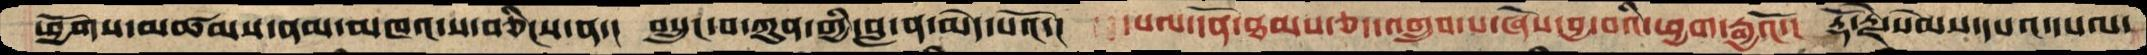ཕྱོགས་མཚམས་ནམ་མཁའ་ས་བཅིངས་ན་།  བསྲུང་བ་ཀུན་གྱི་བླ་ན་མེད་པའོ་།  དཔལ་དོན་ཐམས་ཅད་འགྲུབ་པ་ཞེས་བྱ་བའི་ཕྱག་རྒྱའོ་།  རྡོ་རྗེ་སེམས་དཔའ་དཔལ་
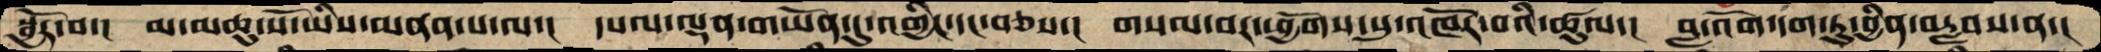སྦྱོར་བ་།  མ་མཆུ་སོ་ཡིས་མནན་པ་ལ་།  དཔལ་ལྡན་གཡོན་དུ་འགྱིང་དང་བཅས་།  གསལ་བར་ཕྱོགས་སུ་འཁོར་བའི་ཚུལ་།  བླ་འོག་དག་ཏུ་བྱིན་བརླབས་ན་།
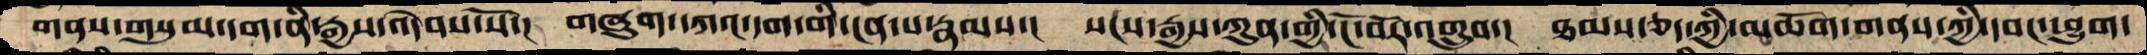གནས་གསུམ་དག་ནི་རྒྱས་འདེབས་སོ་།  གཞུག་དཀའ་དག་གི་ངན་པ་རྣམས་།  སངས་རྒྱས་ཀུན་གྱི་ངོ་བོར་འགྲུབ་།  ཐམས་ཅད་ཀྱི་མཆོག་གནས་ཀྱི་དབང་ཕྱུག་
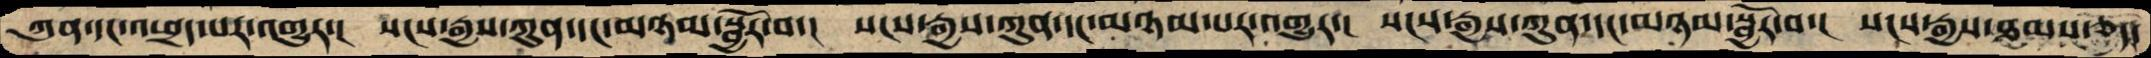ཀུན་དང་འཕྲད་པར་འགྱུར་།  སངས་རྒྱས་ཀུན་དང་མཉམ་སྦྱོར་བ་།  སངས་རྒྱས་ཀུན་དང་མཉམ་པར་འགྱུར་།  སངས་རྒྱས་ཀུན་དང་མཉམ་སྦྱོར་བ་།  སངས་རྒྱས་ཐམས་ཅད་
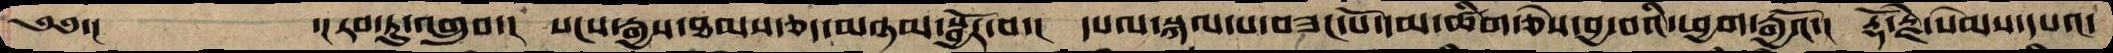༄༅་།     ་།རབ་ཏུ་འགྲུབ་།  སངས་རྒྱས་ཐམས་ཅད་མཉམ་སྦྱོར་བ་།  དཔལ་ལྡན་སྐལ་པ་བཟང་པོ་དམ་ཚིག་ཅེས་བྱ་བའི་ཕྱག་རྒྱའོ་།  རྡོ་རྗེ་སེམས་དཔའ་
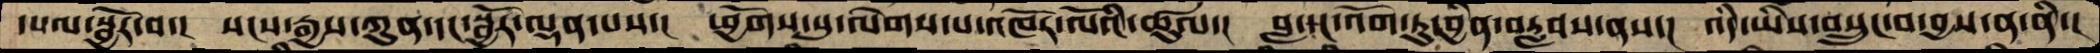དཔལ་སྦྱོར་བ་།  སངས་རྒྱས་ཀུན་དང་སྦྱོར་ལྡན་པས་།  ཕྱོགས་སུ་ལེགས་པ་འཁོར་ལོའི་ཚུལ་།  བླ་དང་འོག་ཏུ་བྱིན་བརླབས་ནས་།  འདི་ཡིས་བསྲུང་བ་བྱས་ན་ནི་།
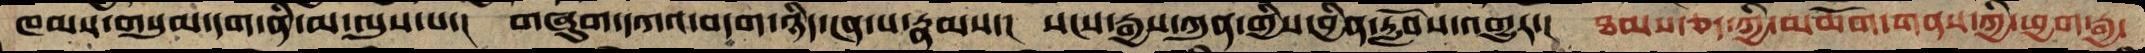ཁམས་གསུམ་དག་ནི་མ་ལུས་པ་།  གཞུག་དཀའ་བདག་ཉིད་ངན་པ་རྣམས་།  སངས་རྒྱས་ཀུན་གྱིས་བྱིན་རློབས་འགྱུར་།  ཐམས་ཅད་ཀྱི་མཆོག་གནས་ཀྱི་ཕྱག་རྒྱ་
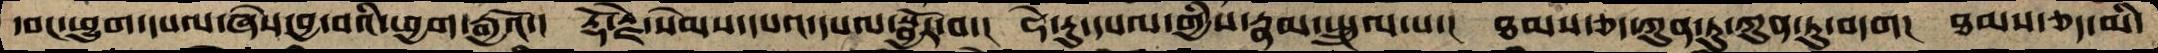དབང་ཕྱུག་དཔལ་ཞེས་བྱ་བའི་ཕྱག་རྒྱའོ་།  རྡོ་རྗེ་སེམས་དཔའ་དཔལ་སྦྱོར་བ་།  ཧེ་རུ་དཔལ་གྱིས་རྣམ་སྤྲུལ་པ་།  ཐམས་ཅད་ཀུན་ཏུ་ཀུན་ཏུ་བདག།  ཐམས་ཅད་མི་
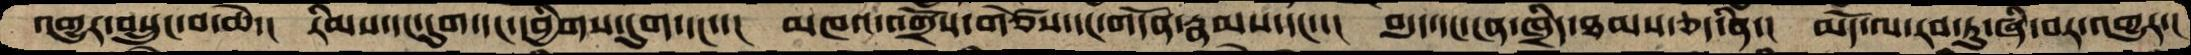འགྱུར་བསྲུང་བ་ཆེ་།  རིམས་དང་དུག་དང་དབྱིགས་དུག་དང་་།  མཁའ་འགྲོས་གཙོས་དང་གདོན་རྣམས་དང་་།  བདུད་དང་ངན་ཁྲིད་ཐམས་ཅད་ནི་།  མདོ་ལ་རབ་ཏུ་ཞི་བར་འགྱུར་།
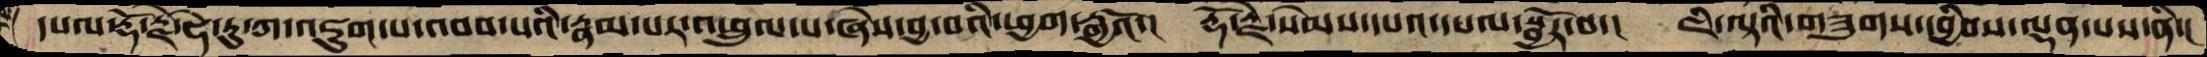དཔལ་རྡོ་རྗེ་ཧེ་རུ་ཀ་འཇུག་པ་འབབ་པའི་རྣམ་པར་འཕྲུལ་པ་ཞེས་བྱ་བའི་ཕྱག་རྒྱའོ་།  རྡོ་རྗེ་སེམས་དཔའ་དཔལ་སྦྱོར་བ་།  ཇི་ལྟའི་གཟུགས་དབྱིབས་ལྡན་པས་ནི་།
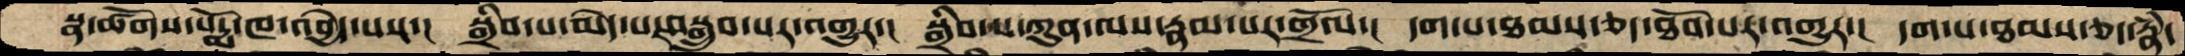སྣ་ཚོགས་པདྨོ་ཁ་འབྱེད་པས་།  སྒྲིབ་པ་མེད་པར་བསྒྲུབ་པར་འགྱུར་།  སྒྲིབ་པ་ཀུན་ལས་རྣམ་པར་གྲོལ་།  དག་པ་ཐམས་ཅད་ཐོབ་པར་འགྱུར་།  དག་པ་ཐམས་ཅད་རྣཾ་
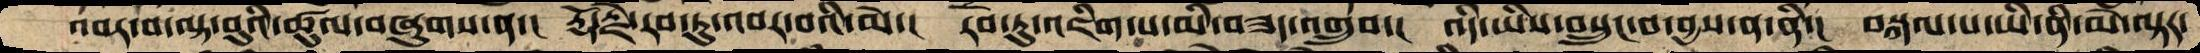འབར་བ་ལྟ་བུའི་ཚུལ་བཞུགས་ན་།  རྡོ་རྗེ་རབ་ཏུ་འབར་བའི་མེ་།  རབ་ཏུ་འཇིག་པ་མི་བཟད་འགྲུབ་།  འདི་ཡིས་བསྲུང་བ་བྱས་ན་ནི་།  བསྐལ་པ་ཡི་ནི་མེ་ལྟར་
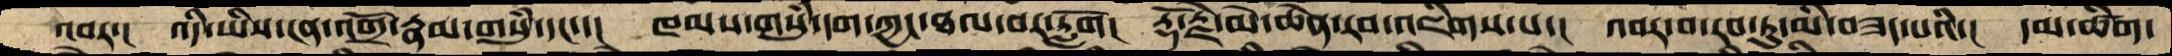འབར་།  འདི་ཡིས་ངན་འགྲོ་རྣམ་གསུཾ་དང་་།  ཁམས་གསུཾ་དག་ཀྱང་ཐལ་བར་རློག།  རྡོ་རྗེ་མེ་ཆེན་རབ་འཇིགས་པ་།  འབར་བ་རབ་ཏུ་མི་བཟད་པའི་།  དམ་ཚིག་
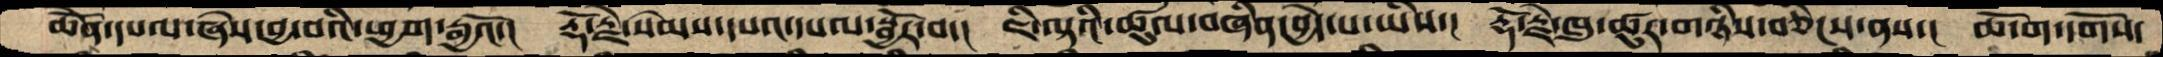ཆེནོ་དཔལ་ཞེས་བྱ་བའི་ཕྱག་རྒྱའོ་།  རྡོ་རྗེ་སེམས་དཔའ་དཔལ་སྦྱོར་བ་།  ཇི་ལྟའི་ཚུལ་བཞིན་བྱེད་པ་ཡིས་།  རྡོ་རྗེ་ཁུ་ཚུར་གཉིས་བཅིངས་ནས་།  མདོག་དགོས་
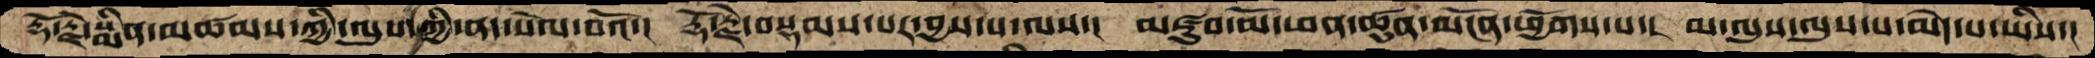རྡོ་རྗེ་སྨིན་མཚམས་ཀྱི་ལུས་ཀྱི་ནད་སེལ་བའོ་།  རྡོ་རྗེ་བསྡམས་པར་བྱས་པ་ལས་།  མཛུབ་མོ་ཕན་ཚུན་མངོན་ཕྱོགས་པ་།  མ་ལུས་ལུས་པ་མེད་པ་ཡིས་།
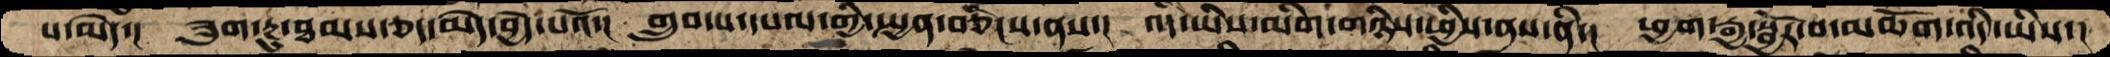པ་མེད་།  ཟུག་རྔུ་ཐམས་ཅད་མེད་བྱེད་པའོ་།  གྲུབ་པ་དཔལ་གྱི་སྤྱན་བཅིངས་ནས་།  འདི་ཡིས་མིག་གཉིས་ཕྱིས་ནས་ནི་།  ཕྱག་རྒྱ་སྦྱོར་བ་མཆོག་འདི་ཡིས་།
